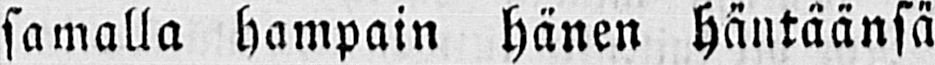samalla hampain hänen häntäänsä
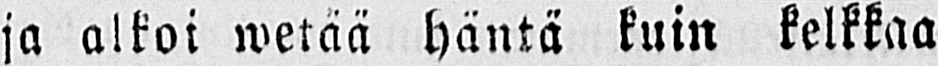ja alkoi wetää häntä kuin kelkkaa
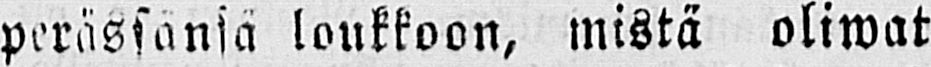perässänsä loukkoon, mistä oliwat
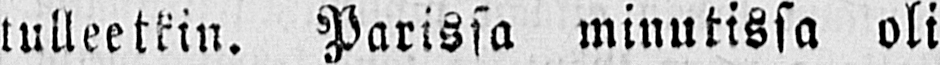tulleetkin. Parissa minutissa oli
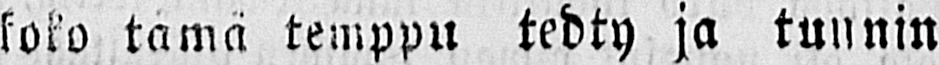koko tämä temppu tedty ja tunnin
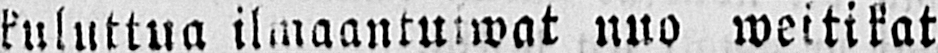kuluttua ilmaantuiwat nuo weitikat
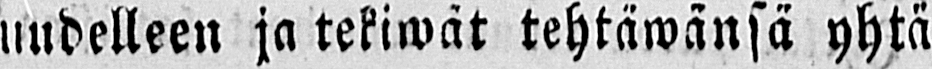uudelleen ja tekiwät tehtäwänsä yhtä
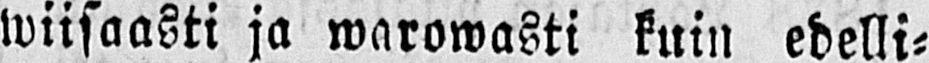wiisaasti ja warowasti kuin edelli-
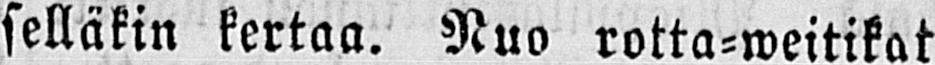selläkin kertaa. Nuo rotta-weitikat
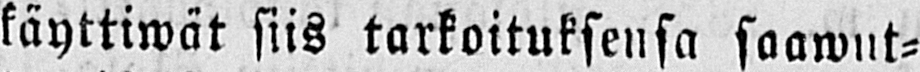käyttiwät siis tarkoituksensa saawut-
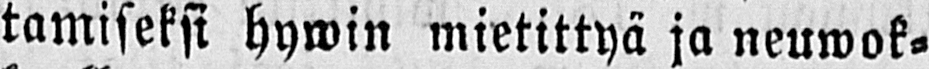tamiseksi hywin mietittyä ja neuwok-
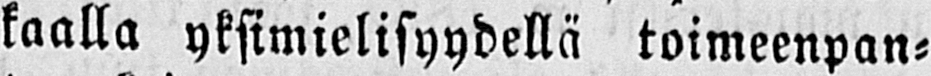kaalla yksimielisyydellä toimeenpan-
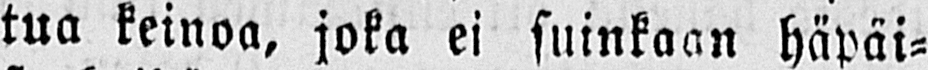tua keinoa, joka ei suinkaan häpäi-
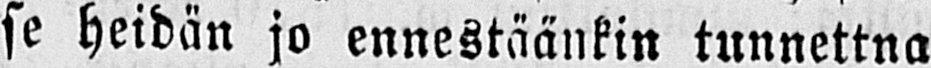se heidän jo ennestäänkin tunnettna
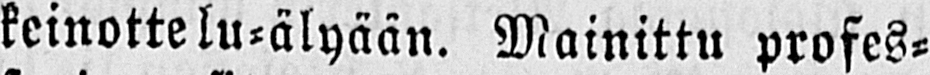keinottelu-älyään. Mainittu profes-
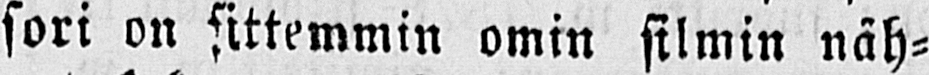sori on sittemmin omin silmin näh-
